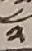༢
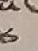༨
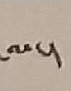ལ་།
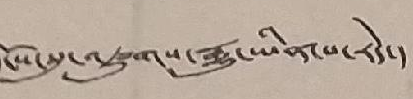དངོས་སུ་འཛུགས་རྒྱུ་ཡིན་པ་རེད་།
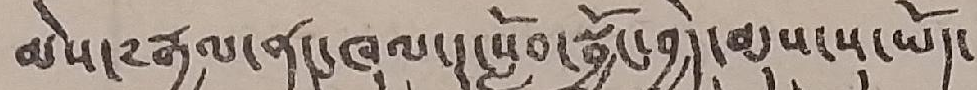མེས་༸རྒྱལ་ནང་ཁུལ་དུ་སློབ་སྦྱོང་བྱེད་མུས་སུ་ཡོད་
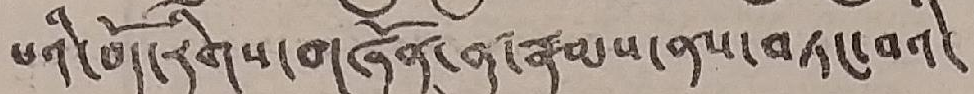པའི་བོད་རིགས་གཞོན་ནུ་རྣམས་ནས་བཏང་བའི་
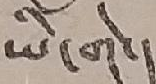ཡི་གེ་།
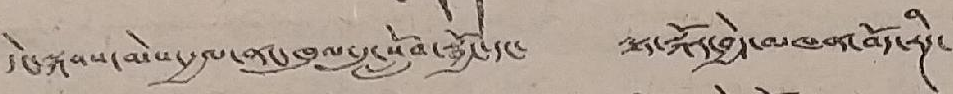དེང་སྐབས་མེས་རྒྱལ་ནང་ཁུལ་དུ་སློབ་སྦྱོང་དང་ ལྟ་སྐོར་བྱེད་མཁན་བོད་རིཊ་
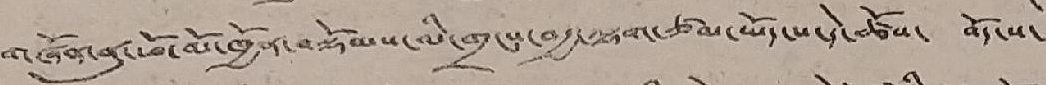གཞོན་ནུ་ཕོ་མོ་ཁྱོན་བསྡོམས་མི་གྲངས་བརྒྱ་ལྷག་ཙམ་ཡོད་པ་དེ་ཚོས་ བོད་ས་
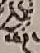སོཊ་
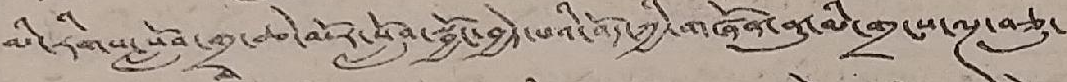མི་རིགས་སློབ་གྲྭ་ཆེ་མོར་སློབ་སྦྱོང་བྱེད་པའི་འོད་ཀྱི་གཞོན་ནུ་མི་གྲངས་ལྔ་བཅུ་
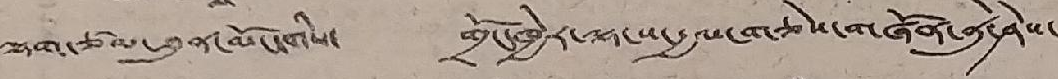ལྷག་ཙམ་ཐུན་མོང་གིས་ གྲོང་ཁྱེར་ལྷ་ས་རྒྱལ་གཅེས་གཞོན་ནུ་ཤེས་
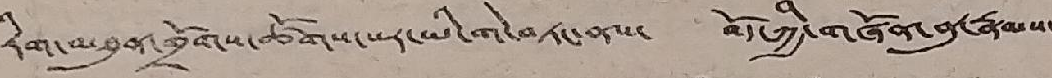རིག་མཐུན་གྲོགས་ཚོགས་པར་ཡི་གེ་བཏང་ནས་ བོད་ཀྱི་གཞོན་ནུ་རྣམས་
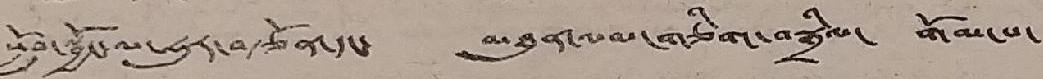སློབ་སྦྱོང་ལ་ཧུར་བརྩོན་དང་ མཐུན་ལམ་གཅིག་བསྒྲིལ་ གོམ་པ་
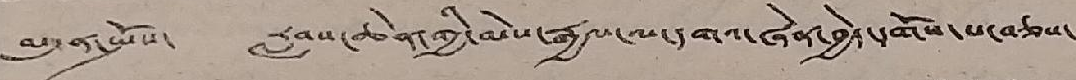མདུན་སྤོས་ རླབས་ཆེན་གྱི་མེས་རྒྱལ་ལ་དགའ་ཞེན་བྱེད་དགོས་པ་བཅས་
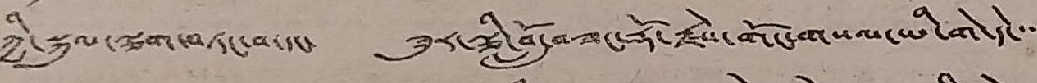ཀྱི་སྐུལ་ལྕག་བཏང་བ་དང་ ཟུར་ལྕི་བློ་བཟང་རྡོ་རྗེས་གོང་གསལ་ཡི་གེ་དེ་་་་
